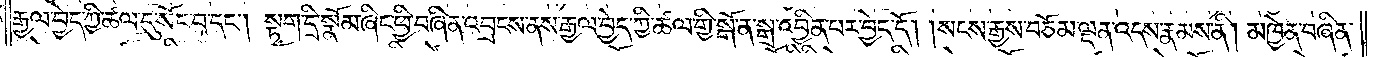རྒྱལ་བྱེད་ཀྱི་ཚལ་དུ་སོང་བ་དང༌། སྟག་དྲི་སྣོམ་ཞིང་ཕྱི་བཞིན་འབྲངས་ནས་རྒྱལ་བྱེད་ཀྱི་ཚལ་གྱི་སྒོ་ན་སྒྲ་འབྱིན་པར་བྱེད་དོ། །སངས་རྒྱས་བཅོམ་ལྡན་འདས་རྣམས་ནི། མཁྱེན་བཞིན་
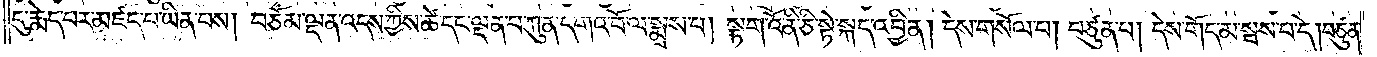དུ་རྨེད་པར་མཛད་པ་ཡིན་པས། བཅོམ་ལྡན་འདས་ཀྱིས་ཚེ་དང་ལྡན་པ་ཀུན་དགའ་བོ་ལ་སྨྲས་པ། སྟག་འོ་ནི་ཅི་སྟེ་སྐད་འབྱིན། དེས་གསོལ་བ། བཙུན་པ། དེས་གོད་མ་སྦས་པ་དེ། བཙུན་
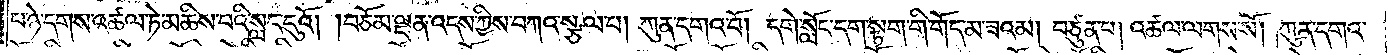པ་ཉེ་དགས་འཚལ་ཏེ་མཆིས་པའི་སླད་དུའོ། །བཅོམ་ལྡན་འདས་ཀྱིས་བཀའ་སྩལ་པ། ཀུན་དགའ་བོ། དགེ་སློང་དག་སྟག་གི་གོད་མ་ཟའམ། བཙུན་པ། འཚལ་ལགས་སོ། །ཀུན་དགའ་
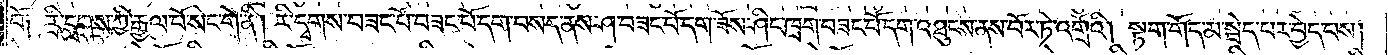བོ༑ རི་དྭགས་ཀྱི་རྒྱལ་པོ་སེང་གེ་ནི། རི་དྭགས་བཟང་པོ་བཟང་པོ་དག་བསད་ནས་ཤ་བཟང་པོ་དག་ཟོས་ཤིང་ཁྲག་བཟང་པོ་དག་འཐུངས་ནས་བོར་ཏེ་འགྲོའི། སྟག་གོད་མ་སྦེད་པར་བྱེད་པས།
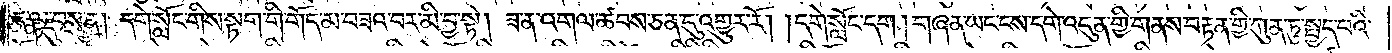དེ་ལྟ་བས་ན། དགེ་སློང་གིས་སྟག་གི་གོད་མ་བཟའ་བར་མི་བྱ་སྟེ། ཟ་ན་འགལ་ཚབས་ཅན་དུ་འགྱུར་རོ། །དགེ་སློང་དག །གཞན་ཡང་ངས་དགེ་འདུན་གྱི་གནས་བརྟན་གྱི་ཀུན་ཏུ་སྤྱད་པའི་
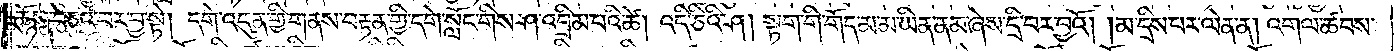ཆོས་བཅའ་བར་བྱ་སྟེ། དགེ་འདུན་གྱི་གནས་བརྟན་གྱི་དགེ་སློང་གིས་ཤ་འབྲིམ་པའི་ཚེ། འདི་ཅིའི་ཤ། སྟག་གི་གོད་མ་མ་ཡིན་ནམ་ཞེས་དྲི་བར་བྱའོ། །མ་དྲིས་པར་ལེན་ན། འགལ་ཚབས་
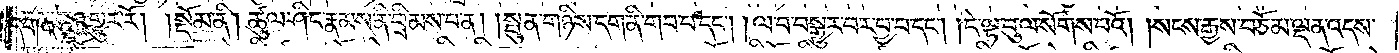ཅན་དུ་འགྱུར་རོ།    །སྡོམ་ནི། ཚུལ་ཤིང་རྣམས་ནི་བྲིམས་པ་ན། སྤུན་གཉིས་དག་ནི་གབ་པ་དང༌། ལ་བ་བསྒྱུར་བར་བྱ་བ་དང༌། །དེ་ལྟ་བུ་ལ་སོགས་པའོ། །སངས་རྒྱས་བཅོམ་ལྡན་འདས་
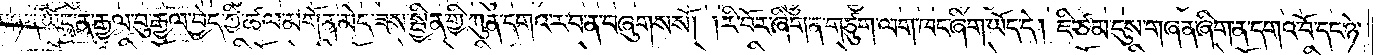མཉན་ཡོད་ན་རྒྱལ་བུ་རྒྱལ་བྱེད་ཀྱི་ཚལ་མགོན་མེད་ཟས་སྦྱིན་གྱི་ཀུན་དགའ་ར་བ་ན་བཞུགས་སོ། །རི་བོར་ཞིག་ན་གཙུག་ལག་ཁང་ཞིག་ཡོད་དེ། ཇི་ཙམ་དུས་གཞན་ཞིག་ན་དགའ་བོ་དང་ཉེ་
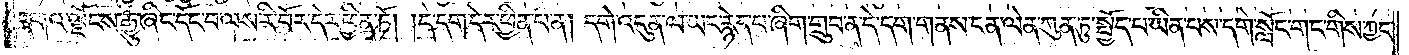དགའ་ལྗོངས་རྒྱུ་ཞིང་དོང་བ་ལས་རི་བོར་དེར་ཕྱིན་ཏོ། །དེ་དག་དེར་ཕྱིན་པ་ན། དགེ་འདུན་ལ་ཡང་རྙེད་པ་ཞིག་གྲུབ་ན་དེ་དག་གནས་ངན་ལེན་ཀུན་ཏུ་སྤྱོད་པ་ཡིན་པས་དགེ་སློང་གང་གིས་ཀྱང་
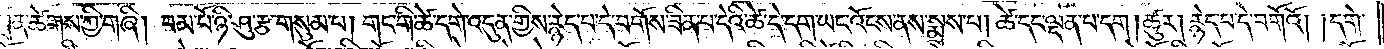ཕྲན་ཚེགས་ཀྱི་གཞི། བམ་པོ་ཉི་ཤུ་རྩ་གསུམ་པ། གང་གི་ཚེ་དགེ་འདུན་གྱིས་རྙེད་པ་དེ་བགོས་ཟིན་པ་དེའི་ཚེ་དེ་དག་ཡང་འོངས་ནས་སྨྲས་པ། ཚེ་དང་ལྡན་པ་དག །ཚུར། རྙེད་པ་དེ་བགོའོ། །དགེ་
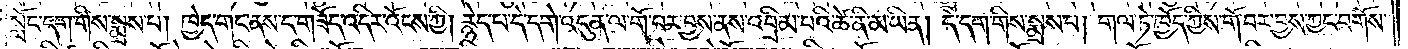སློང་དག་གིས་སྨྲས་པ། ཁྱེད་གང་ནས་ད་གཟོད་འདིར་འོངས་ཀྱི། རྙེད་པ་དེ་དགེ་འདུན་ལ་གོ་བར་བྱས་ནས་འབྲིམ་པའི་ཚེ་ནི་མ་ཡིན། དེ་དག་གིས་སྨྲས་པ། གལ་ཏེ་ཁྱོད་ཀྱིས་གོ་བར་བྱས་ཀྱང་བགོས་
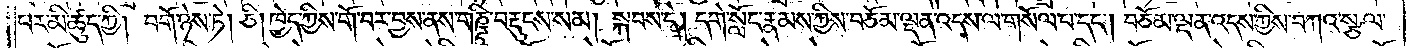པར་མི་ཚུད་ཀྱི། བགོ་ཉེས་ཏེ། ཅི། ཁྱེད་ཀྱིས་གོ་བར་བྱས་ནས་གཎྜཱི་བརྡུངས་སམ། སྐབས་དེ། དགེ་སློང་རྣམས་ཀྱིས་བཅོམ་ལྡན་འདས་ལ་གསོལ་པ་དང༌། བཅོམ་ལྡན་འདས་ཀྱིས་བཀའ་སྩལ་
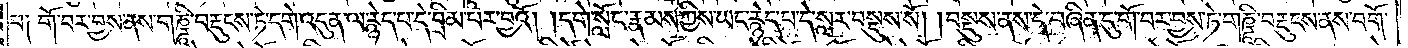པ༑ གོ་བར་བྱས་ནས་གཎྜཱི་བརྡུངས་ཏེ་དགེ་འདུན་ལ་རྙེད་པ་དེ་བྲིམ་པར་བྱའོ། །དགེ་སློང་རྣམས་ཀྱིས་ཡང་རྙེད་པ་དེ་སླར་བསྡུས་སོ། །བསྡུས་ནས་དེ་བཞིན་དུ་གོ་བར་བྱས་ཏེ་གཎྜཱི་བརྡུངས་ནས་བགོ་
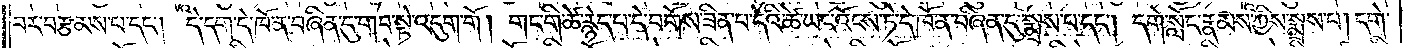བར་བརྩམས་པ་དང༌། དེ་དག་དེ་ཁོ་ན་བཞིན་དུ་གབ་སྟེ་འདུག་གོ། གང་གི་ཚེ་རྙེད་པ་དེ་བགོས་ཟིན་པ་དེའི་ཚེ་ཡང་འོངས་ཏེ་དེ་ཁོ་ན་བཞིན་དུ་སྨྲས་པ་དང༌། དགེ་སློང་རྣམས་ཀྱིས་སྨྲས་པ། དགེ་
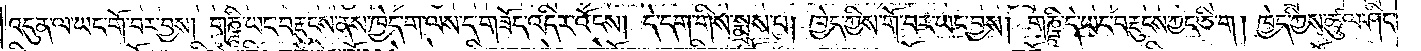འདུན་ལ་ཡང་གོ་བར་བྱས། གཎྜཱི་ཡང་བརྡུངས་ནས་ཁྱེད་ག་ལས་ད་གཟོད་འདིར་འོངས། དེ་དག་གིས་སྨྲས་པ། ཁྱེད་ཀྱིས་གོ་བར་ཡང་བྱས། གཎྜཱི་དེ་ཡང་བརྡུངས་ཀྱང་ཅིག །ཁྱེད་ཀྱིས་ཚུལ་ཤིང་
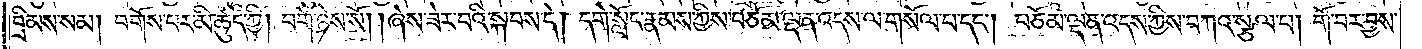བྲིམས་སམ། བགོས་པར་མི་ཚུད་ཀྱི། བགོ་ཉེས་སོ། །ཞེས་ཟེར་བའི་སྐབས་དེ། དགེ་སློང་རྣམས་ཀྱིས་བཅོམ་ལྡན་འདས་ལ་གསོལ་བ་དང༌། བཅོམ་ལྡན་འདས་ཀྱིས་བཀའ་སྩལ་པ། གོ་བར་བྱས་
